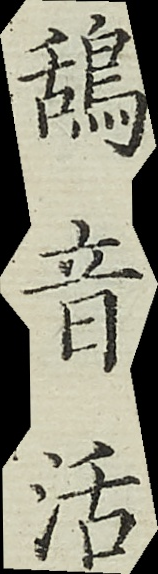鴰音活
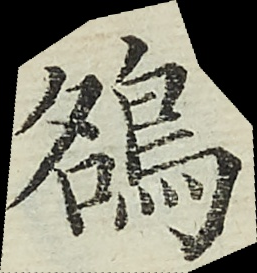鵅
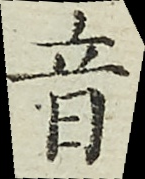音
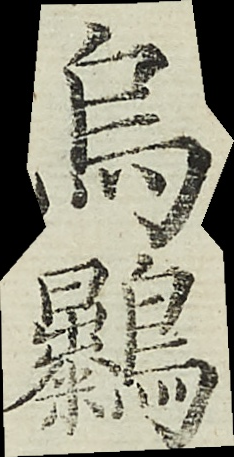烏暴
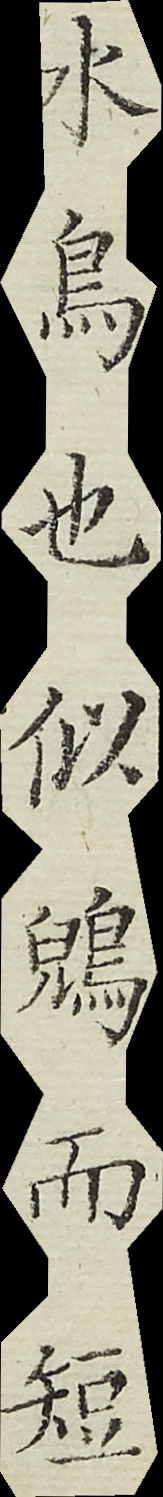水鳥也似鶂而短
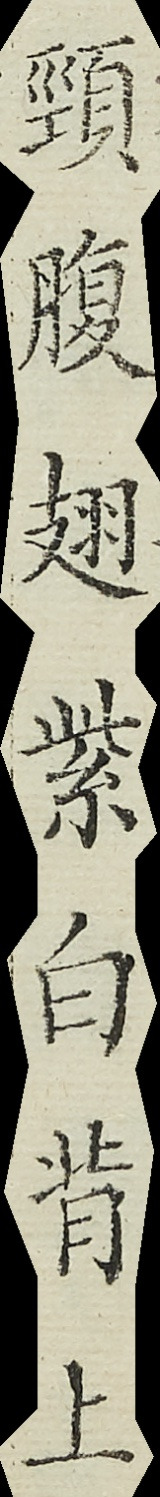頸腹翅紫白背上
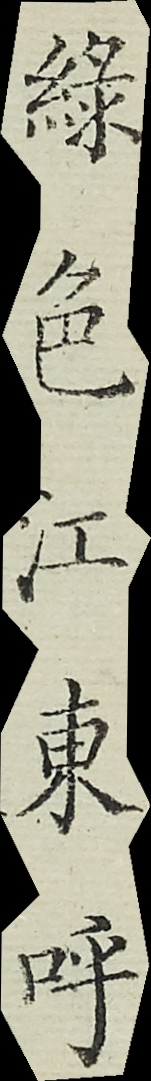綠色江東呼
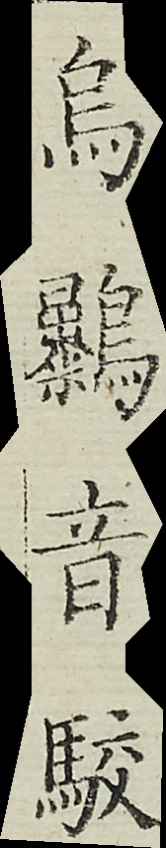烏暴音駮
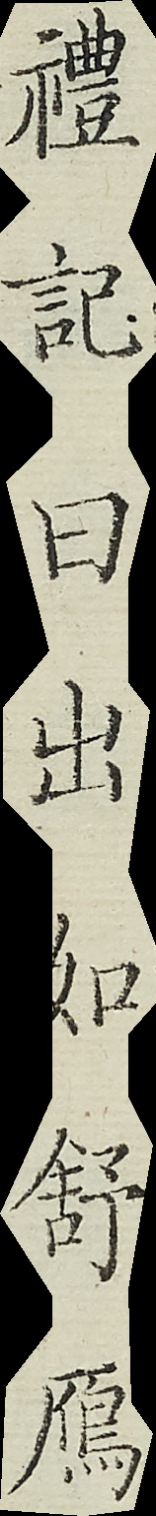禮記曰出如舒雁
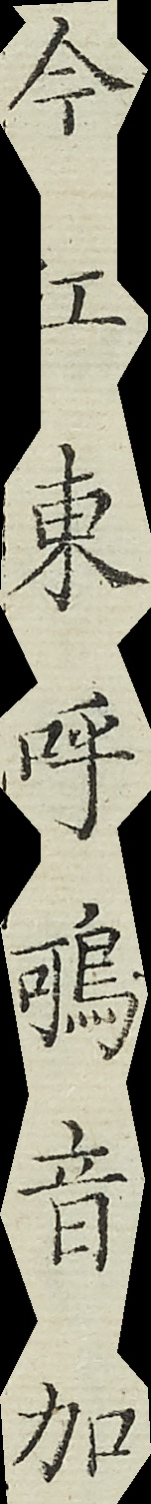今江東呼鴚音加
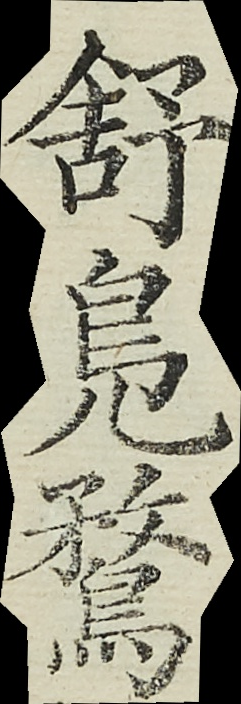舒鳧鶩
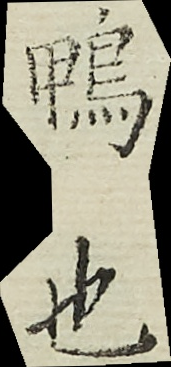鴨也
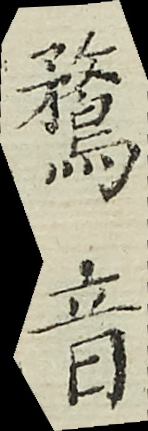鶩音
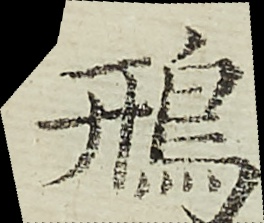鳽
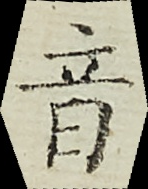音
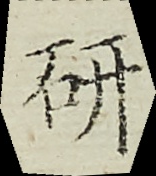研
